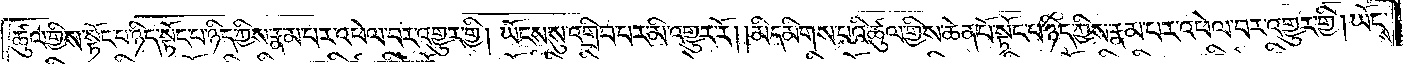ཚུལ་གྱིས་སྟོང་པ་ཉིད་སྟོང་པ་ཉིད་ཀྱིས་རྣམ་པར་འཕེལ་བར་འགྱུར་གྱི། ཡོངས་སུ་འགྲིབ་པར་མི་འགྱུར་རོ། །མི་དམིགས་པའི་ཚུལ་གྱིས་ཆེན་པོ་སྟོང་པ་ཉིད་ཀྱིས་རྣམ་པར་འཕེལ་བར་འགྱུར་གྱི། ཡོངས་
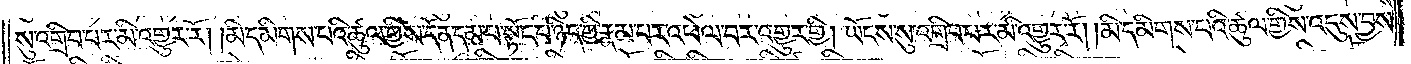སུ་འགྲིབ་པར་མི་འགྱུར་རོ། །མི་དམིགས་པའི་ཚུལ་གྱིས་དོན་དམ་པ་སྟོང་པ་ཉིད་ཀྱིས་རྣམ་པར་འཕེལ་བར་འགྱུར་གྱི། ཡོངས་སུ་འགྲིབ་པར་མི་འགྱུར་རོ། །མི་དམིགས་པའི་ཚུལ་གྱིས་འདུས་བྱས་
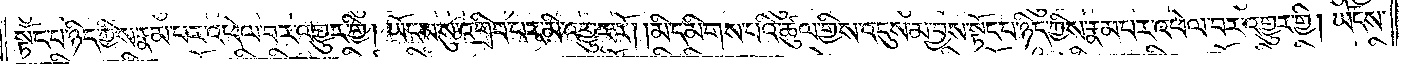སྟོང་པ་ཉིད་ཀྱིས་རྣམ་པར་འཕེལ་བར་འགྱུར་གྱི། ཡོངས་སུ་འགྲིབ་པར་མི་འགྱུར་རོ། །མི་དམིགས་པའི་ཚུལ་གྱིས་འདུས་མ་བྱས་སྟོང་པ་ཉིད་ཀྱིས་རྣམ་པར་འཕེལ་བར་འགྱུར་གྱི། ཡོངས་
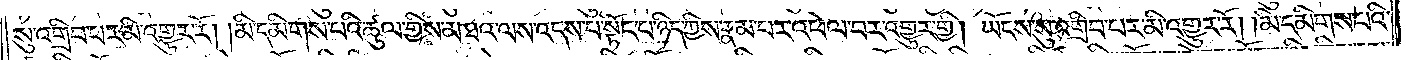སུ་འགྲིབ་པར་མི་འགྱུར་རོ། །མི་དམིགས་པའི་ཚུལ་གྱིས་མཐའ་ལས་འདས་པ་སྟོང་པ་ཉིད་ཀྱིས་རྣམ་པར་འཕེལ་བར་འགྱུར་གྱི། ཡོངས་སུ་འགྲིབ་པར་མི་འགྱུར་རོ། །མི་དམིགས་པའི་
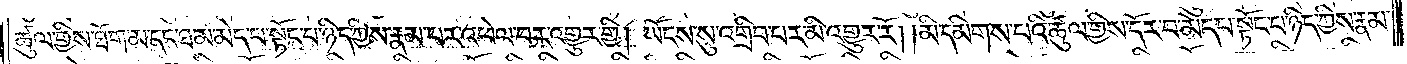ཚུལ་གྱིས་ཐོག་མ་དང་ཐ་མ་མེད་པ་སྟོང་པ་ཉིད་ཀྱིས་རྣམ་པར་འཕེལ་བར་འགྱུར་གྱི། ཡོངས་སུ་འགྲིབ་པར་མི་འགྱུར་རོ། །མི་དམིགས་པའི་ཚུལ་གྱིས་དོར་བ་མེད་པ་སྟོང་པ་ཉིད་ཀྱིས་རྣམ་
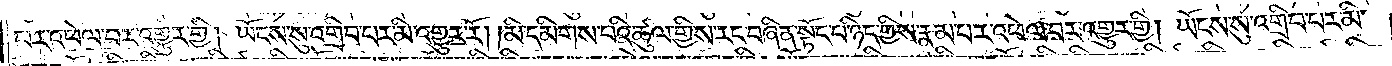པར་འཕེལ་བར་འགྱུར་གྱི། ཡོངས་སུ་འགྲིབ་པར་མི་འགྱུར་རོ། །མི་དམིགས་པའི་ཚུལ་གྱིས་རང་བཞིན་སྟོང་པ་ཉིད་ཀྱིས་རྣམ་པར་འཕེལ་བར་འགྱུར་གྱི། ཡོངས་སུ་འགྲིབ་པར་མི་
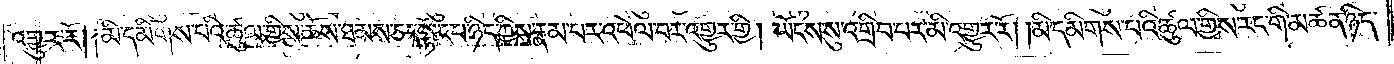འགྱུར་རོ། །མི་དམིགས་པའི་ཚུལ་གྱིས་ཆོས་ཐམས་ཅད་སྟོང་པ་ཉིད་ཀྱིས་རྣམ་པར་འཕེལ་བར་འགྱུར་གྱི། ཡོངས་སུ་འགྲིབ་པར་མི་འགྱུར་རོ། །མི་དམིགས་པའི་ཚུལ་གྱིས་རང་གི་མཚན་ཉིད་
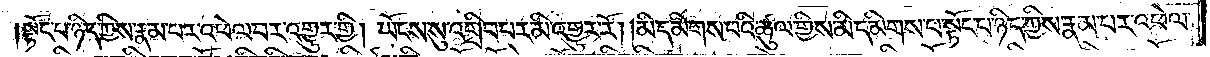སྟོང་པ་ཉིད་ཀྱིས་རྣམ་པར་འཕེལ་པར་འགྱུར་གྱི། ཡོངས་སུ་འགྲིབ་པར་མི་འགྱུར་རོ། །མི་དམིགས་པའི་ཚུལ་གྱིས་མི་དམིགས་པ་སྟོང་པ་ཉིད་ཀྱིས་རྣམ་པར་འཕེལ་
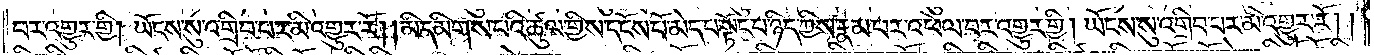བར་འགྱུར་གྱི། ཡོངས་སུ་འགྲིབ་པར་མི་འགྱུར་རོ། །མི་དམིགས་པའི་ཚུལ་གྱིས་དངོས་པོ་མེད་པ་སྟོང་པ་ཉིད་ཀྱིས་རྣམ་པར་འཕེལ་བར་འགྱུར་གྱི། ཡོངས་སུ་འགྲིབ་པར་མི་འགྱུར་རོ། །
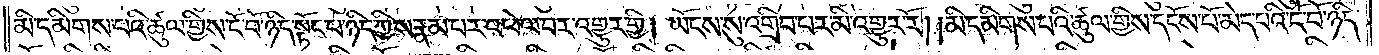མི་དམིགས་པའི་ཚུལ་གྱིས་ངོ་བོ་ཉིད་སྟོང་པ་ཉིད་ཀྱིས་རྣམ་པར་འཕེལ་བར་འགྱུར་གྱི། ཡོངས་སུ་འགྲིབ་པར་མི་འགྱུར་རོ། །མི་དམིགས་པའི་ཚུལ་གྱིས་དངོས་པོ་མེད་པའི་ངོ་བོ་ཉིད་
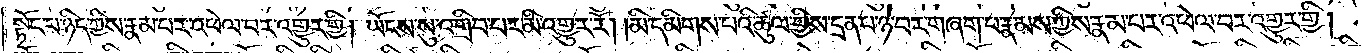སྟོང་པ་ཉིད་ཀྱིས་རྣམ་པར་འཕེལ་བར་འགྱུར་གྱི། ཡོངས་སུ་འགྲིབ་པར་མི་འགྱུར་རོ། །མི་དམིགས་པའི་ཚུལ་གྱིས་དྲན་པ་ཉེ་བར་གཞག་པ་རྣམས་ཀྱིས་རྣམ་པར་འཕེལ་བར་འགྱུར་གྱི།
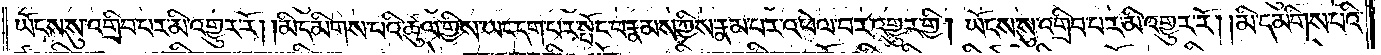ཡོངས་སུ་འགྲིབ་པར་མི་འགྱུར་རོ། །མི་དམིགས་པའི་ཚུལ་གྱིས་ཡང་དག་པར་སྤོང་བ་རྣམས་ཀྱིས་རྣམ་པར་འཕེལ་བར་འགྱུར་གྱི། ཡོངས་སུ་འགྲིབ་པར་མི་འགྱུར་རོ། །མི་དམིགས་པའི་
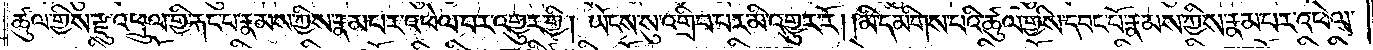ཚུལ་གྱིས་རྫུ་འཕྲུལ་གྱི་རྐང་པ་རྣམས་ཀྱིས་རྣམ་པར་འཕེལ་བར་འགྱུར་གྱི། ཡོངས་སུ་འགྲིབ་པར་མི་འགྱུར་རོ། །མི་དམིགས་པའི་ཚུལ་གྱིས་དབང་པོ་རྣམས་ཀྱིས་རྣམ་པར་འཕེལ་
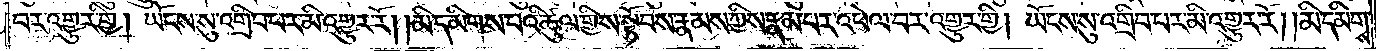བར་འགྱུར་གྱི། ཡོངས་སུ་འགྲིབ་པར་མི་འགྱུར་རོ། །མི་དམིགས་པའི་ཚུལ་གྱིས་སྟོབས་རྣམས་ཀྱིས་རྣམ་པར་འཕེལ་བར་འགྱུར་གྱི། ཡོངས་སུ་འགྲིབ་པར་མི་འགྱུར་རོ། །མི་དམིགས་
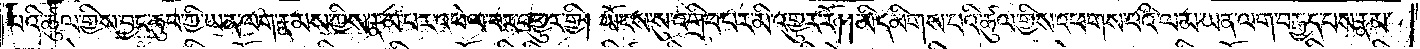པའི་ཚུལ་གྱིས་བྱང་ཆུབ་ཀྱི་ཡན་ལག་རྣམས་ཀྱིས་རྣམ་པར་འཕེལ་བར་འགྱུར་གྱི། ཡོངས་སུ་འགྲིབ་པར་མི་འགྱུར་རོ། །མི་དམིགས་པའི་ཚུལ་གྱིས་འཕགས་པའི་ལམ་ཡན་ལག་བརྒྱད་པས་རྣམ་
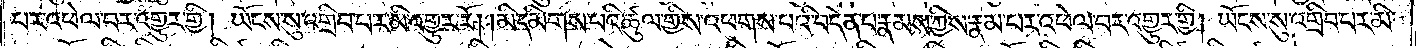པར་འཕེལ་བར་འགྱུར་གྱི། ཡོངས་སུ་འགྲིབ་པར་མི་འགྱུར་རོ། །མི་དམིགས་པའི་ཚུལ་གྱིས་འཕགས་པའི་བདེན་པ་རྣམས་ཀྱིས་རྣམ་པར་འཕེལ་བར་འགྱུར་གྱི། ཡོངས་སུ་འགྲིབ་པར་མི་
